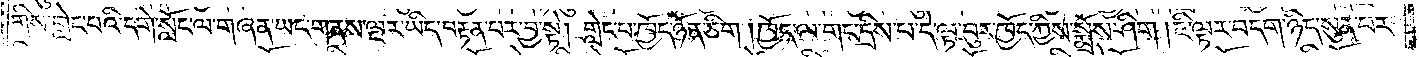གིས་གླེང་བའི་དགེ་སློང་ལ་གཞན་ཡང་གནས་ལྔར་ཡིད་བརྟན་པར་བྱ་སྟེ། གླེང་པ་ཁྱོད་ཉོན་ཅིག །ཁྱོད་ལ་གང་དྲིས་པ་དེ་ལྟ་བུར་ཁྱོད་ཀྱིས་སྨྲོས་ཤིག །ཇི་ལྟར་བདག་ཉིད་སུན་པར་
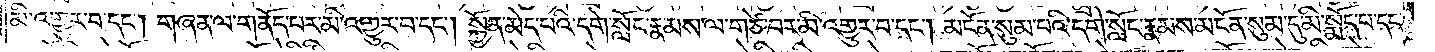མི་འགྱུར་བ་དང༌། གཞན་ལ་གནོད་པར་མི་འགྱུར་བ་དང༌། སྐྱོན་མེད་པའི་དགེ་སློང་རྣམས་ལ་གཙེ་བར་མི་འགྱུར་བ་དང༌། མངོན་སུམ་པའི་དགེ་སློང་རྣམས་མངོན་སུམ་དུ་མི་སྨོད་པ་དང༌།
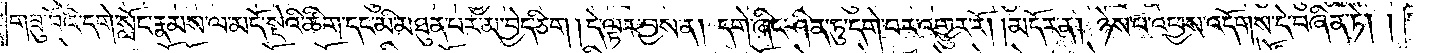གཟུ་བོའི་དགེ་སློང་རྣམས་ལ་མདོ་སྡེའི་ཚིག་དང་མི་མཐུན་པར་མ་བྱེད་ཅིག །དེ་ལྟར་བྱས་ན། དགེ་ཞིང་ཤིན་ཏུ་དགེ་བར་འགྱུར་རོ། །མདོར་ན། ཉེས་པ་འཕྱས་འདོགས་དེ་བཞིན་ཏེ། །
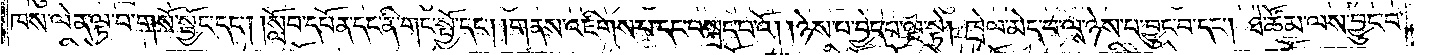ཁས་ལེན་ལྟ་བ་གསོ་སྦྱོང་དང༌། །སློབ་དཔོན་དང་ནི་གང་སྤྱོ་དང༌། །གནས་འཇིགས་པ་དང་བསྐྲད་པའོ། །ཉེས་པ་བྱེད་པ་ལྔ་སྟེ། ཁྲེལ་མེད་པ་ལས་ཉེས་པ་བྱུང་བ་དང༌། ཐེ་ཚོམ་ལས་བྱུང་བ་
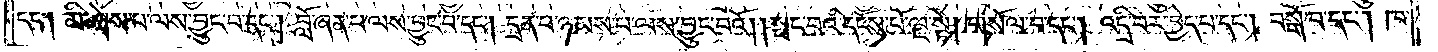དང༌། མི་ཤེས་པ་ལས་བྱུང་བ་དང༌། བློ་ཞན་པ་ལས་བྱུང་བ་དང༌། དྲན་པ་ཉམས་པ་ལས་བྱུང་བའོ། །སྤང་བའི་དངོས་པོ་ལྔ་སྟེ། གསོལ་བ་དང༌། འདྲི་བར་བྱེད་པ་དང༌། བསྒོ་བ་དང༌། ཁ་
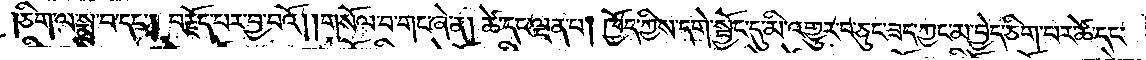ཅིག་ལ་སྨྲ་བ་དང༌། བརྗོད་པར་བྱ་བའོ། །གསོལ་བ་གང་ཞེ་ན། ཚེ་དང་ལྡན་པ། ཁྱོད་ཀྱིས་དགེ་སྦྱོང་དུ་མི་འགྱུར་བ་ཅུང་ཟད་ཀྱང་མ་བྱེད་ཅིག་པར་ཚེ་དང་
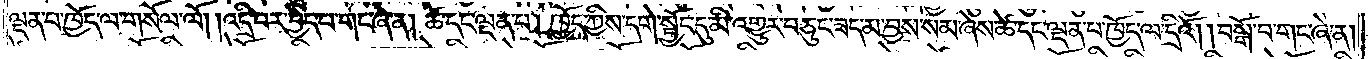ལྡན་པ་ཁྱོད་ལ་གསོལ་ལོ། །འདྲི་བར་བྱེད་པ་གང་ཞེ་ན། ཚེ་དང་ལྡན་པ། ཁྱོད་ཀྱིས་དགེ་སྦྱོང་དུ་མི་འགྱུར་བ་ཅུང་ཟད་མ་བྱས་སམ་ཞེས་ཚེ་དང་ལྡན་པ་ཁྱོད་ལ་དྲིའོ། །བསྒོ་བ་གང་ཞེ་ན།
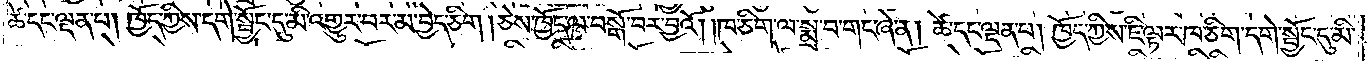ཚེ་དང་ལྡན་པ། ཁྱོད་ཀྱིས་དགེ་སྦྱོང་དུ་མི་འགྱུར་བར་མ་བྱེད་ཅིག །ཅེས་ཁྱོད་ལ་བསྒོ་བར་བྱའོ། །ཁ་ཅིག་ལ་སྨྲ་བ་གང་ཞེ་ན། ཚེ་དང་ལྡན་པ། ཁྱོད་ཀྱིས་ཇི་ལྟར་ཁ་ཅིག་དགེ་སྦྱོང་དུ་མི་
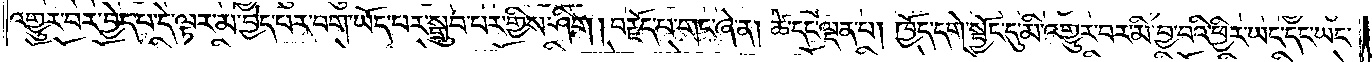འགྱུར་བར་བྱེད་པ་དེ་ལྟར་མ་བྱེད་པར་བག་ཡོད་པར་སྒྲུབ་པར་གྱིས་ཤིག །བརྗོད་པ་གང་ཞེ་ན། ཚེ་དང་ལྡན་པ། ཁྱོད་དགེ་སྦྱོང་དུ་མི་འགྱུར་བར་མི་བྱ་བའི་ཕྱིར་ཡང་དང་ཡང་
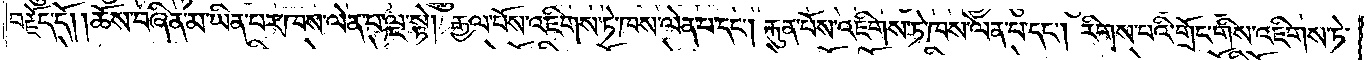བརྗོད་དོ། །ཆོས་བཞིན་མ་ཡིན་པར་ཁས་ལེན་པ་ལྔ་སྟེ། རྒྱལ་པོས་འཇིགས་ཏེ་ཁས་ལེན་པ་དང༌། རྐུན་པོས་འཇིགས་ཏེ་ཁས་ལེན་པ་དང༌། རིགས་པའི་གྲོང་གིས་འཇིགས་ཏེ་
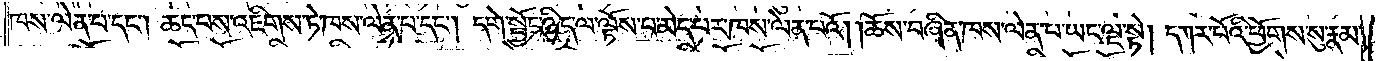ཁས་ལེན་པ་དང༌། ཆད་པས་འཇིགས་ཏེ་ཁས་ལེན་པ་དང༌། དགེ་སྦྱོང་ཉིད་ལ་ལྟོས་པ་མེད་པར་ཁས་ལེན་པའོ། །ཆོས་བཞིན་ཁས་ལེན་པ་ཡང་ལྔ་སྟེ། དཀར་པོའི་ཕྱོགས་སུ་རྣམ་
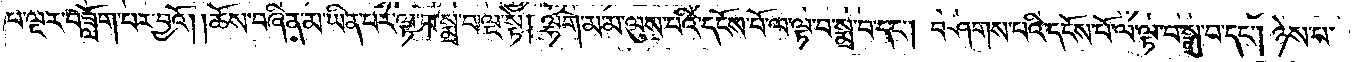པ་ལྔར་བཟློག་པར་བྱའོ། །ཆོས་བཞིན་མ་ཡིན་པར་ལྟ་བ་སྨྲ་བ་ལྔ་སྟེ། ལྷག་མ་མ་ལུས་པའི་དངོས་པོ་ལ་ལྟ་བ་སྨྲ་བ་དང༌། བཤགས་པའི་དངོས་པོ་ལ་ལྟ་བ་སྨྲ་བ་དང༌། ཉེས་པ་
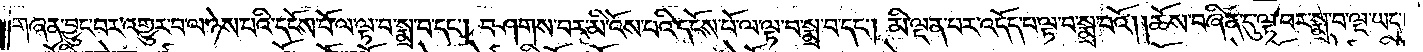གཞན་བྱུང་བར་འགྱུར་བ་ལ་ཉེས་པའི་དངོས་པོ་ལ་ལྟ་བ་སྨྲ་བ་དང༌། བཤགས་བར་མི་འོས་པའི་དངོས་པོ་ལ་ལྟ་བ་སྨྲ་བ་དང༌། མི་ལྡན་པར་འདོད་པ་ལྟ་བ་སྨྲ་བའོ། །ཆོས་བཞིན་དུ་ལྟ་བར་སྨྲ་བ་ལྔ་ཡང་
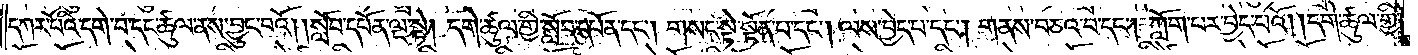དཀར་པོའི་དགེ་བ་དང་ཚུལ་ནས་བྱུང་བའོ། །སློབ་དཔོན་ལྔ་སྟེ། དགེ་ཚུལ་གྱི་སློབ་དཔོན་དང༌། གསང་སྟེ་སྟོན་པ་དང༌། ལས་བྱེད་པ་དང༌། གནས་བཅའ་བ་དང༌། ཀློག་པར་བྱེད་པའོ། །དགེ་ཚུལ་གྱི་
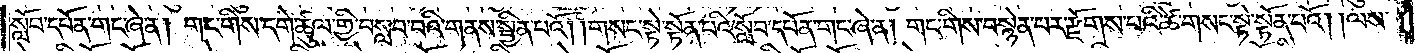སློབ་དཔོན་གང་ཞེ་ན། གང་གིས་དགེ་ཚུལ་གྱི་བསླབ་པའི་གནས་སྦྱིན་པའོ། །གསང་སྟེ་སྟོན་པའི་སློབ་དཔོན་གང་ཞེ་ན། གང་གིས་བསྙེན་པར་རྫོགས་པའི་ཚེ་གསང་སྟེ་སྟོན་པའོ། །ལས་
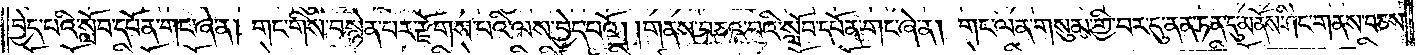བྱེད་པའི་སློབ་དཔོན་གང་ཞེ་ན། གང་གིས་བསྙེན་པར་རྫོགས་པའི་ལས་བྱེད་པའོ། །གནས་བཅའ་བའི་སློབ་དཔོན་གང་ཞེ་ན། གང་ལན་གསུམ་གྱི་བར་དུ་ནན་ཏན་དུ་མནོས་ཤིང་གནས་བཅས་
